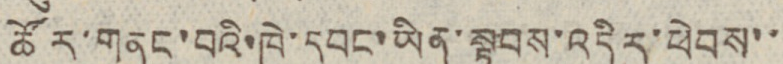ཚོར་གནང་བའི་ཁེ་དབང་ཡིན་སྟབས་འདིར་ཕེབས་་
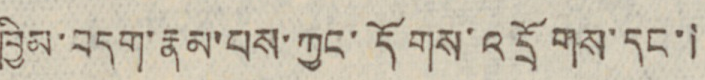ཁྱིམ་བདག་རྣམ་པས་ཀྱང་དོགས་འདྲོགས་དང་།
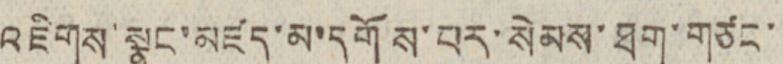འཇིགས་སྣང་མཛད་མ་དགོས་པར་སེམས་ཐག་གཙང་
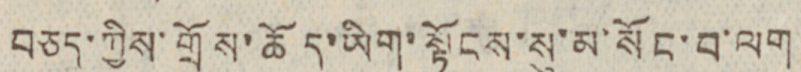བཅད་ཀྱིས་གྲོས་ཆོད་ཡིག་སྟོངས་སུ་མ་སོང་བ་ལག
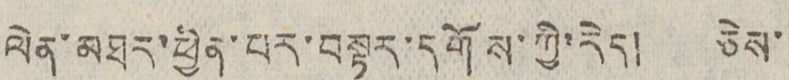ལེན་མཐར་ཕྱིན་པར་བསྟར་དགོས་ཀྱི་རེད། ཅེས་
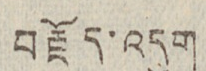བརྗོད་འདུག
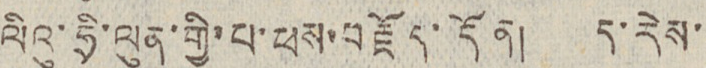ལིའུ་ཧྲི་ལུན་གྱི་པ་ཕས་བརྗོད་དོན། ད་རེས་
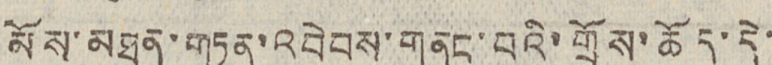མོས་མཐུན་གཏན་འབེབས་གནང་བའི་གྲོས་ཆོད་དེ་
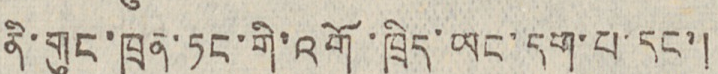ནི་གུང་ཁྲན་ཏང་གི་འགོ་ཁྲིད་ཡང་དག་པ་དང་།
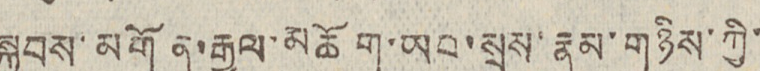སྐྱབས་མགོན་རྒྱལ་མཆོག་ཡབ་སྲས་རྣམ་གཉིས་ཀྱི་
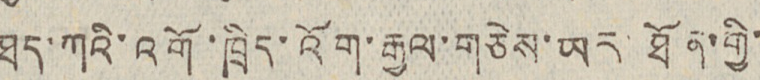ཐད་ཀའི་འགོ་ཁྲིད་འོག་རྒྱལ་གཅེས་ཡར་ཐོན་གྱི་
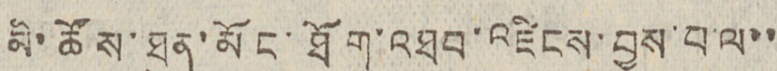མི་ཚོས་ཐུན་མོང་ཐོག་འཐབ་འཛིངས་བྱས་པ་ལ་་
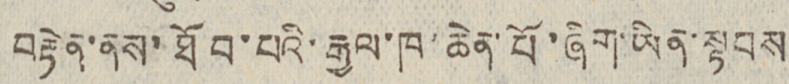བརྟེན་ནས་ཐོབ་པའི་རྒྱལ་ཁ་ཆེན་པོ་ཞིག་ཡིན་སྟབས
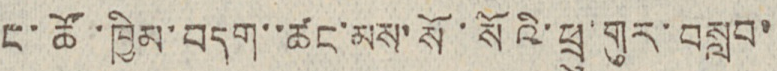ང་ཚོ་ཁྱིམ་བདག་ཚང་མས་སོ་སོའི་ཕྲུ་གུར་བསླབ་
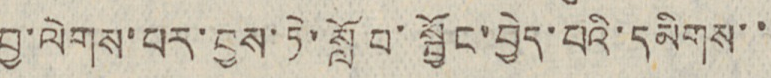བྱ་ལེགས་པར་བྱས་ཏེ་སློབ་སྦྱོང་བྱེད་པའི་དམིགས་་
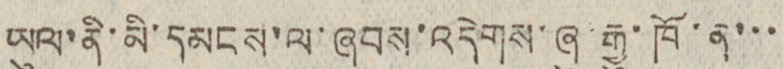ཡུལ་ནི་མི་དམངས་ལ་ཞབས་འདེགས་ཞུ་རྒྱུ་ཁོ་ན་་་
